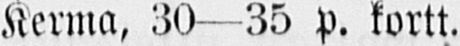Kerma, 30 —35 p. kortt.
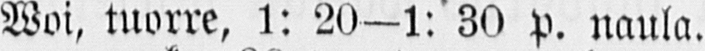Woi, tuorre, 1: 20—1: 30 p. naula.
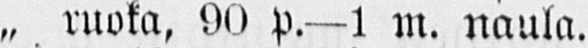„ ruoka, 90 p.—1 m. naula.
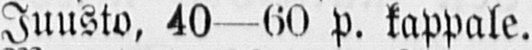Juusto, 40 —60 p. kappale.
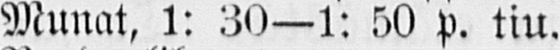Munat, 1: 30—1: 50 p. tiu.
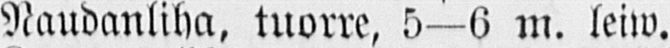Naudanliha, tuorre, 5—6 m. leiw.
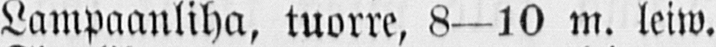Lampaanliha, tuorre, 8—10 m. leiw.
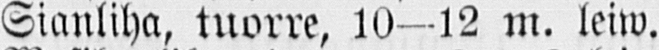Sianliha, tuorre, 10—12 m. leiw.
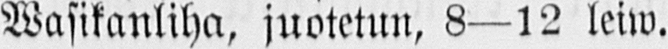Wasikanliha, juotetun, 8—12 leiw.
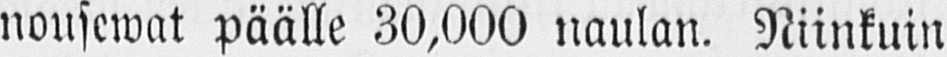nousewat päälle 30,000 naulan. Niinkuin
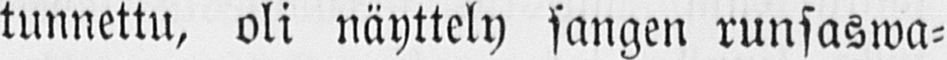tunnettu, oli näyttely sangen runsaswa-
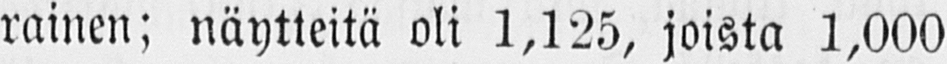rainen; näytteitä oli 1,125, joista 1,000
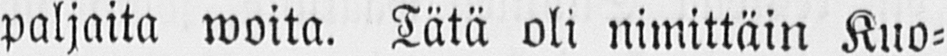paljaita woita. Tätä oli nimittäin Kuo-
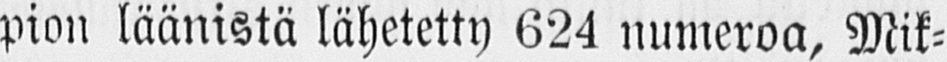pion läänistä lähetetty 624 numeroa, Mik-
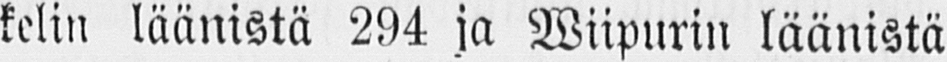kelin läänistä 294 ja Wiipurin läänistä
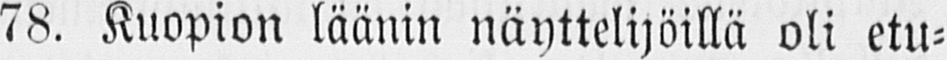78. Kuopion läänin näyttelijöillä oli etu-
